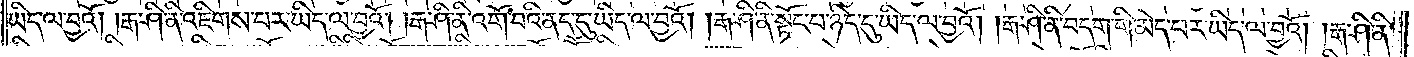ཡིད་ལ་བྱའོ། །རྒ་ཤི་ནི་འཇིགས་པར་ཡིད་ལ་བྱའོ། །རྒ་ཤི་ནི་འགོ་བའི་ནད་དུ་ཡིད་ལ་བྱའོ། །རྒ་ཤི་ནི་སྟོང་པ་ཉིད་དུ་ཡིད་ལ་བྱའོ། །རྒ་ཤི་ནི་བདག་གི་མེད་པར་ཡིད་ལ་བྱའོ། །རྒ་ཤི་ནི་
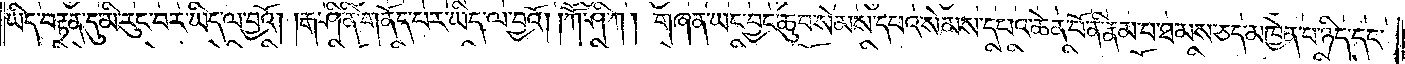ཡིད་བརྟན་དུ་མི་རུང་བར་ཡིད་ལ་བྱའོ། །རྒ་ཤི་ནི་གནོད་པར་ཡིད་ལ་བྱའོ། །ཀཽ་ཤི་ཀ། གཞན་ཡང་བྱང་ཆུབ་སེམས་དཔའ་སེམས་དཔའ་ཆེན་པོ་ནི་རྣམ་པ་ཐམས་ཅད་མཁྱེན་པ་ཉིད་དང་
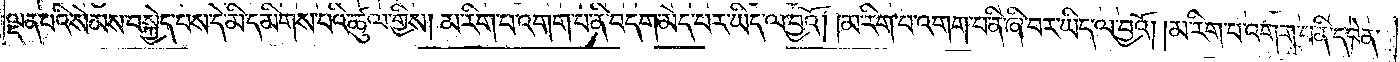ལྡན་པའི་སེམས་བསྐྱེད་པས་དེ་མི་དམིགས་པའི་ཚུལ་གྱིས། མ་རིག་པ་འགག་པ་ནི་བདག་མེད་པར་ཡིད་ལ་བྱའོ། མ་རིག་པ་འགག་པ་ནི་ཞི་བར་ཡིད་ལ་བྱའོ། །མ་རིག་པ་འགག་པ་ནི་དབེན་
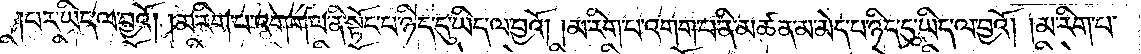པར་ཡིད་ལ་བྱའོ། །མ་རིག་པ་འགག་པ་ནི་སྟོང་པ་ཉིད་དུ་ཡིད་ལ་བྱའོ། །མ་རིག་པ་འགག་པ་ནི་མཚན་མ་མེད་པ་ཉིད་དུ་ཡིད་ལ་བྱའོ། །མ་རིག་པ་
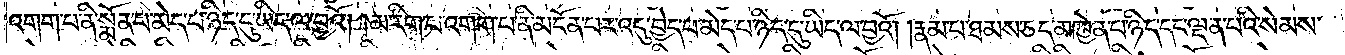འགག་པ་ནི་སྨོན་པ་མེད་པ་ཉིད་དུ་ཡིད་ལ་བྱའོ། །མ་རིག་པ་འགག་པ་ནི་མངོན་པར་འདུ་བྱེད་པ་མེད་པ་ཉིད་དུ་ཡིད་ལ་བྱའོ། །རྣམ་པ་ཐམས་ཅད་མཁྱེན་པ་ཉིད་ལ་ལྡན་པའི་སེམས་
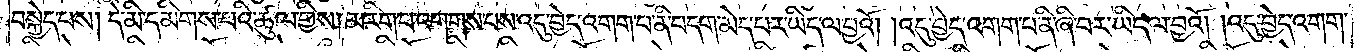བསྐྱེད་པས། །དེ་མི་དམིགས་པའི་ཚུལ་གྱིས། མ་རིག་པས་འགགས་པས་འདུ་བྱེད་འགག་པ་ནི་བདག་མེད་པར་ཡིད་ལ་བྱའོ། །འདུ་བྱེད་འགག་པ་ནི་ཞི་བར་ཡིད་ལ་བྱའོ། །འདུ་བྱེད་འགག་
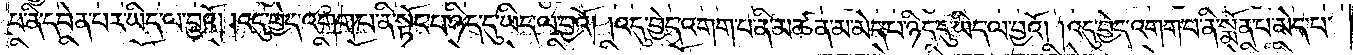པ་ནི་བདེན་པར་ཡིད་ལ་བྱའོ། འདུ་བྱེད་འགག་པ་ནི་སྟོང་པ་ཉིད་དུ་ཡིད་ལ་བྱའོ། །འདུ་བྱེད་འགག་པ་ནི་མཚན་མ་མེད་པ་ཉིད་དུ་ཡིད་ལ་བྱའོ། །འདུ་བྱེད་འགག་པ་ནི་སྨོན་པ་མེད་པ་
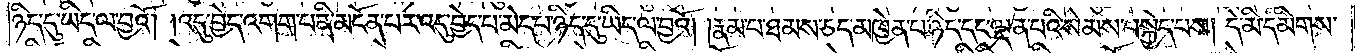ཉིད་དུ་ཡིད་བྱའོ། །འདུ་བྱེད་འགག་པ་ནི་མངོན་པར་འདུ་བྱེད་པ་མེད་པ་ཉིད་དུ་ཡིད་ལ་བྱའོ། རྣམ་པ་ཐམས་ཅད་མཁྱེན་པ་ཉིད་དང་ལྡན་པའི་སེམས་བསྐྱེད་པས། །དེ་མི་དམིགས་
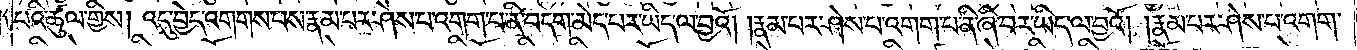པའི་ཚུལ་གྱིས། འདུ་བྱེད་འགགས་པས་རྣམ་པར་ཤེས་པ་འགག་པ་ནི་བདག་མེད་པར་ཡིད་ལ་བྱའོ། །རྣམ་པར་ཤེས་པ་འགག་པ་ནི་ཞི་བར་ཡིད་ལ་བྱའོ། །རྣམ་པར་ཤེས་པ་འགག་
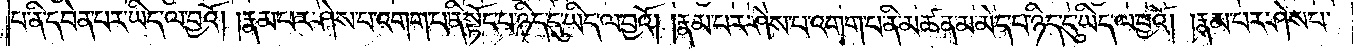པ་ནི་དབེན་པར་ཡིད་ལ་བྱའོ། །རྣམ་པར་ཤེས་པ་འགག་པ་ནི་སྟོང་པ་ཉིད་དུ་ཡིད་ལ་བྱའོ། །རྣམ་པར་ཤེས་པ་འགག་པ་ནི་མཚན་མ་མེད་པ་ཉིད་དུ་ཡིད་ལ་བྱའོ། །རྣམ་པར་ཤེས་པ་
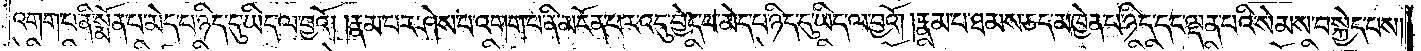འགག་མེད་པ་ནི་སྨོན་པ་མེད་པ་ཉིད་དུ་ཡིད་ལ་བྱའོ། རྣམ་པར་ཤེས་པ་འགག་པ་ནི་མངོན་པར་འདུ་བྱེད་པ་མེད་པ་ཉིད་དུ་ཡིད་ལ་བྱའོ། རྣམ་པ་ཐམས་ཅད་མཁྱེན་པ་ཉིད་དང་ལྡན་པའི་སེམས་བསྐྱེད་པས།
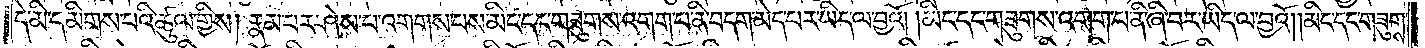དེ་མི་དམིགས་པའི་ཚུལ་གྱིས། རྣམ་པར་ཤེས་པ་འགགས་པས་མིང་དང་གཟུགས་འགག་པ་ནི་བདག་མེད་པར་ཡིད་ལ་བྱའོ། །མིང་དང་གཟུགས་འགག་པ་ནི་ཞི་བར་ཡིད་ལ་བྱའོ། །མིང་དང་གཟུགས་
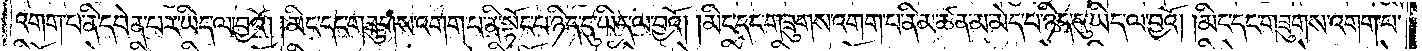འགག་པ་ནི་དབེན་པར་ཡིད་ལ་བྱའོ། མིང་དང་གཟུགས་འགག་པ་ནི་སྟོང་པ་ཉིད་ཡིད་ལ་བྱའོ། །མིང་དང་གཟུགས་འགག་པ་ནི་མཚན་མ་མེད་པ་ཉིད་དུ་ཡིད་ལ་བྱའོ། །མིང་དང་གཟུགས་འགག་པ་
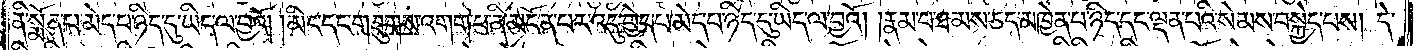ནི་སྨོན་པ་མེད་པ་ཉིད་ཡིད་ལ་བྱའོ། །མིང་དང་གཟུགས་འགག་པ་ནི་མངོན་པར་འདུ་བྱེད་པ་མེད་པ་ཉིད་ཡིད་ལ་བྱའོ། རྣམ་པ་ཐམས་ཅད་མཁྱེན་པ་ཉིད་དང་ལྡན་པའི་སེམས་བསྐྱེད་པས། དེ་
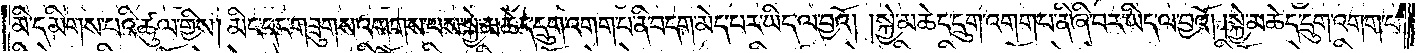མི་དམིགས་པའི་ཚུལ་གྱིས། མིང་དང་གཟུགས་འགགས་པས་སྐྱེ་མཆེད་དྲུག་འགག་པ་ནི་བདག་མེད་པར་ཡིད་ལ་བྱའོ། །སྐྱེ་མཆེད་དྲུག་འགག་པ་ནི་ཞི་བར་ཡིད་བྱའོ། །སྐྱེ་མཆེད་དྲུག་འགག་པ་
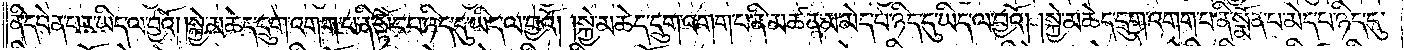ནི་བདེན་པར་ཡིད་ལ་བྱའོ། །སྐྱེ་མཆེད་དྲུག་འགག་པ་ནི་སྟོང་པ་ཉིད་དུ་ཡིད་ལ་བྱའོ། །སྐྱེ་མཆེད་དྲུག་འགག་པ་ནི་མཚན་མ་མེད་པ་ཉིད་དུ་ཡིད་ལ་བྱའོ། །སྐྱེ་མཆེད་དྲུག་འགག་པ་ནི་སྨོན་པ་མེད་ཉིད་དུ་
